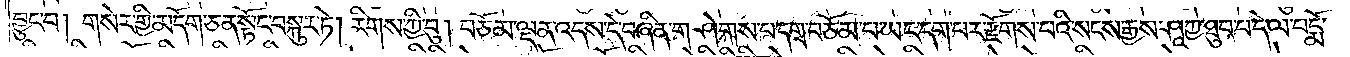བྱུང་བ། གསེར་གྱི་མདོག་ཅན་སྟོང་བསྐུར་ཏེ། རིགས་ཀྱི་བུ། བཅོམ་ལྡན་འདས་དེ་བཞིན་གཤེགས་པ་དགྲ་བཅོམ་པ་ཡང་དག་པར་རྫོགས་པའི་སངས་རྒྱས་ཤཱཀྱ་ཐུབ་པ་དེ་ལ་པདྨོ་
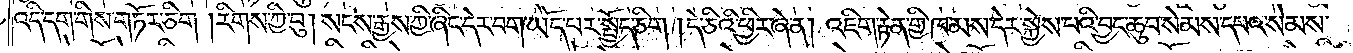འདི་དག་གིས་གཏོར་ཅིག །རིགས་ཀྱི་བུ། སངས་རྒྱས་ཀྱི་ཞིང་དེར་བག་ཡོད་པར་སྤྱོད་ཅིག །དེ་ཅིའི་ཕྱིར་ཞེན། འཇིག་རྟེན་གྱི་ཁམས་དེར་སྐྱེས་པའི་བྱང་ཆུབ་སེམས་དཔའ་སེམས་
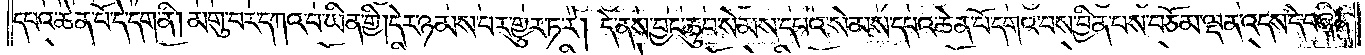དཔའ་ཆེན་པོ་དེ་དག་ནི། མགུ་བར་དཀའ་བ་ཡིན་གྱི། དེར་ཉམས་པར་གྱུར་ཏ་རེ། དེ་ནས་བྱང་ཆུབ་སེམས་དཔའ་སེམས་དཔའ་ཆེན་པོ་དགའ་བས་བྱིན་པས་བཅོམ་ལྡན་འདས་དེ་བཞིན་
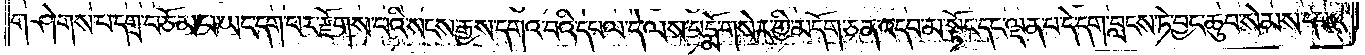གཤེགས་པ་དགྲ་བཅོམ་པ་ཡང་དག་པར་རྫོགས་པའི་སངས་རྒྱས་དགའ་བའི་དཔལ་དེ་ལས་པདྨོ་གསེར་གྱི་མདོག་ཅན་འདབ་མ་སྟོང་དང་ལྡན་པ་དེ་དག་བླངས་ཏེ་བྱང་ཆུབ་སེམས་དཔའ་
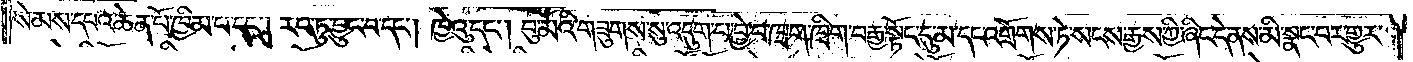སེམས་དཔའ་ཆེན་པོ་ཁྱིམ་པ་དང༌། རབ་ཏུ་བྱུང་བ་དང༌། ཁྱེའུ་དང༌། བུ་མོའི་གཟུགས་སུ་འདུག་པ་བྱེ་བ་ཁྲག་ཁྲིག་བརྒྱ་སྟོང་དུ་མ་དང་འགྲོགས་ཏེ་སངས་རྒྱས་ཀྱི་ཞིང་དེ་ནས་མི་སྣང་བར་གྱུར་
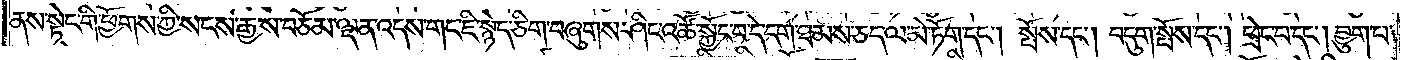ནས་སྟེང་གི་ཕྱོགས་ཀྱི་སངས་རྒྱས་བཅོམ་ལྡན་འདས་གང་ཇི་སྙེད་ཅིག་བཞུགས་ཤིང་འཚོ་སྐྱོང་བ་དེ་དག་ཐམས་ཅད་ལ་མེ་ཏོག་དང༌། སྤོས་དང༌། བདུག་སྤོས་དང༌། ཕྲེང་བ་དང༌། བྱུག་པ་
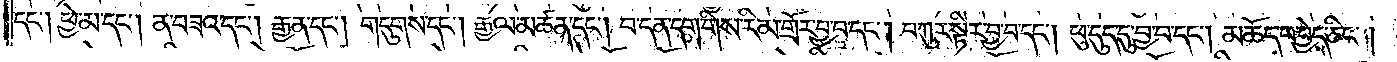དང༌། ཕྱེ་མ་དང༌། ན་བཟའ་དང༌། རྒྱན་དང༌། གདུགས་དང༌། རྒྱལ་མཚན་དང༌། བ་དན་དག་གིས་རིམ་གྲོར་བྱ་བ་དང༌། བཀུར་སྟིར་བྱ་བ་དང༌། ཕུ་དུད་དུ་བྱ་བ་དང༌། མཆོད་པ་བྱེད་ཅིང༌།
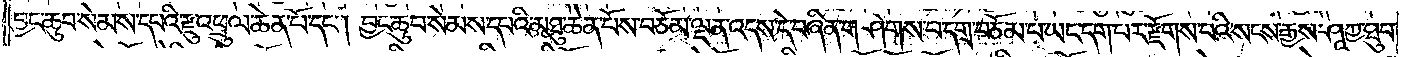བྱང་ཆུབ་སེམས་དཔའི་རྫུ་འཕྲུལ་ཆེན་པོ་དང༌། བྱང་ཆུབ་སེམས་དཔའི་མཐུ་ཆེན་པོས་བཅོམ་ལྡན་འདས་དེ་བཞིན་གཤེགས་པ་དགྲ་བཅོམ་པ་ཡང་དག་པར་རྫོགས་པའི་སངས་རྒྱས་ཤཱཀྱ་ཐུབ་
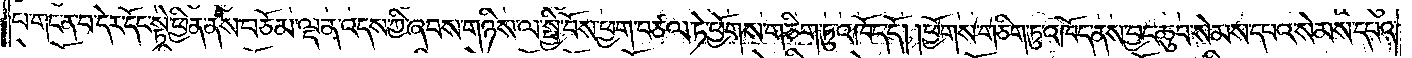པ་གང་ན་བ་དེར་དོང་སྟེ་ཕྱིན་ནས་བཅོམ་ལྡན་འདས་ཀྱི་ཞབས་གཉིས་ལ་སྤྱི་བོས་ཕྱག་བཙལ་ཏེ་ཕྱོགས་གཅིག་ཏུ་འཁོད་དོ། །ཕྱོགས་གཅིག་ཏུ་འཁོད་ནས་བྱང་ཆུབ་སེམས་དཔའ་སེམས་དཔའ་
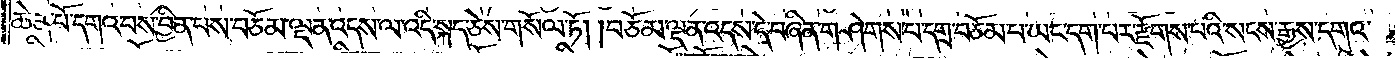ཆེན་པོ་དགའ་བས་བྱིན་པས་བཅོམ་ལྡན་འདས་ལ་འདི་སྐད་ཅེས་གསོལ་ཏོ། །བཅོམ་ལྡན་འདས་དེ་བཞིན་གཤེགས་པ་དགྲ་བཅོམ་པ་ཡང་དག་པར་རྫོགས་པའི་སངས་རྒྱས་དགའ་
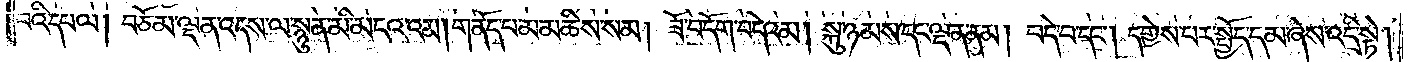པའི་དཔལ། བཅོམ་ལྡན་འདས་ལ་སྙུན་མི་མངའ་འམ། གནོད་བ་མ་མཆིས་སམ། ཟོ་བདོག་བདེའམ། སྐུ་ཉམས་དང་ལྡན་ནམ། བདེ་བ་དང༌། དགྱེས་པར་སྤྱོད་དམ་ཞེས་འདྲི་སྟེ།
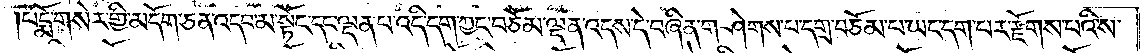པདྨོ་གསེར་གྱི་མདོག་ཅན་འདབ་མ་སྟོང་དང་ལྡན་པ་འདི་དག་ཀྱང་བཅོམ་ལྡན་འདས་དེ་བཞིན་གཤེགས་པ་དགྲ་བཅོམ་པ་ཡང་དག་པར་རྫོགས་པའི་ས་
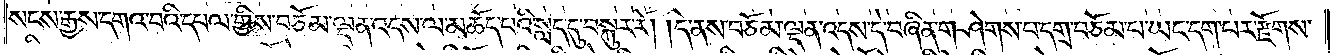སངས་རྒྱས་དགའ་བའི་དཔལ་གྱིས་བཅོམ་ལྡན་འདས་ལ་མཆོད་པའི་སླད་དུ་བསྐུར་རོ། །དེ་ནས་བཅོམ་ལྡན་འདས་དེ་བཞིན་གཤེགས་པ་དགྲ་བཅོམ་པ་ཡང་དག་པར་རྫོགས་
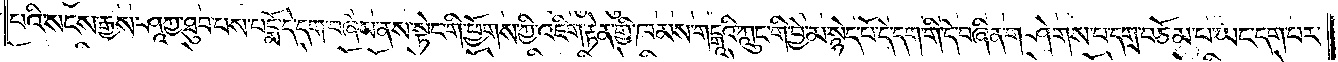པའི་སངས་རྒྱས་ཤཱཀྱ་ཐུབ་པས་པདྨོ་དེ་དག་བཞེས་ནས་སྟེང་གི་ཕྱོགས་ཀྱི་འཇིག་རྟེན་གྱི་ཁམས་གངྒཱའི་ཀླུང་གི་བྱེ་མ་སྙེད་པོ་དེ་དག་གི་དེ་བཞིན་གཤེགས་པ་དགྲ་བཅོམ་པ་ཡང་དག་པར་
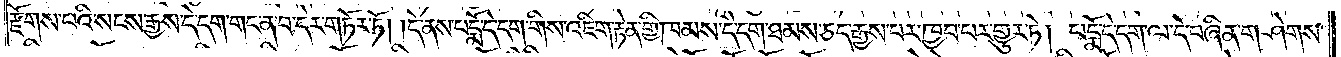རྫོགས་པའི་སངས་རྒྱས་དེ་དག་གང་ན་བ་དེར་གཏོར་ཏོ། །དེ་ནས་པདྨོ་དེ་དག་གིས་འཇིག་རྟེན་གྱི་ཁམས་དེ་དག་ཐམས་ཅད་རྒྱས་པར་ཁྱབ་པར་གྱུར་ཏེ། པདྨོ་དེ་དག་ལ་དེ་བཞིན་གཤེགས་
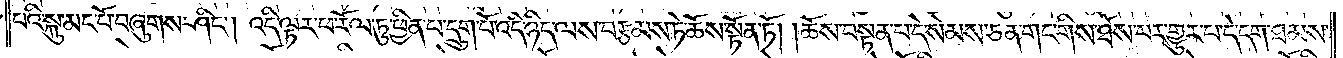པའི་སྐུ་མང་པོ་བཞུགས་ཤིང༌། འདི་ལྟར་ཕ་རོལ་ཏུ་ཕྱིན་པ་དྲུག་པོ་འདི་ཉིད་ལས་བརྩམས་ཏེ་ཆོས་སྟོན་ཏོ། །ཆོས་བསྟན་པ་དེ་སེམས་ཅན་གང་གིས་ཐོས་པར་གྱུར་པ་དེ་དག་ཐམས་
